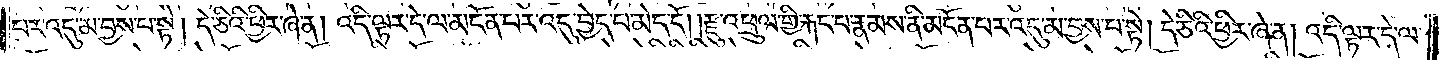པར་འདུ་མ་བྱས་པ་སྟེ། དེ་ཅིའི་ཕྱིར་ཞེ་ན། འདི་ལྟར་དེ་ལ་མངོན་པར་འདུ་བྱེད་པ་མེད་དོ། །རྫུ་འཕྲུལ་གྱི་རྐང་པ་རྣམས་ནི་མངོན་པར་འདུ་མ་བྱས་པ་སྟེ། དེ་ཅིའི་ཕྱིར་ཞེ་ན། འདི་ལྟར་དེ་ལ་
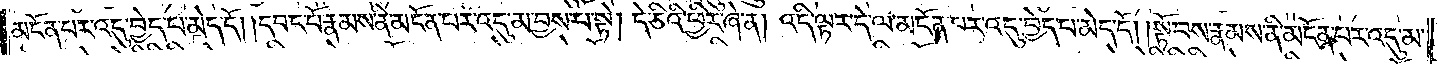མངོན་པར་འདུ་བྱེད་པ་མེད་དོ། །དབང་པོ་རྣམས་ནི་མངོན་པར་འདུ་མ་བྱས་པ་སྟེ། དེ་ཅིའི་ཕྱིར་ཞེ་ན། འདི་ལྟར་དེ་ལ་མངོན་པར་འདུ་བྱེད་པ་མེད་དོ། །སྟོབས་རྣམས་ནི་མངོན་པར་འདུ་མ་
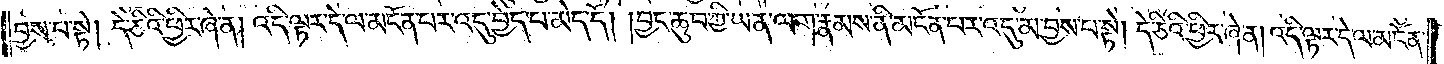བྱས་པ་སྟེ། དེ་ཅིའི་ཕྱིར་ཞེ་ན། འདི་ལྟར་དེ་ལ་མངོན་པར་འདུ་བྱེད་པ་མེད་དོ། །བྱང་ཆུབ་ཀྱི་ཡན་ལག་རྣམས་ནི་མངོན་པར་འདུ་མ་བྱས་པ་སྟེ། དེ་ཅིའི་ཕྱིར་ཞེ་ན། འདི་ལྟར་དེ་ལ་མངོན་
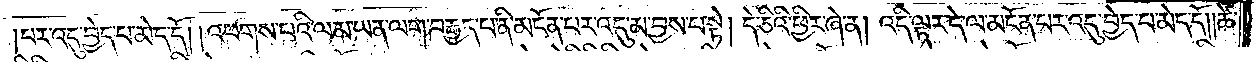པར་འདུ་བྱེད་པ་མེད་དོ། །འཕགས་པའི་ལམ་ཡན་ལག་བརྒྱད་པ་ནི་མངོན་པར་འདུ་མ་བྱས་པ་སྟེ། དེ་ཅིའི་ཕྱིར་ཞེ་ན། འདི་ལྟར་དེ་ལ་མངོན་པར་འདུ་བྱེད་པ་མེད་དོ། །ཚེ་
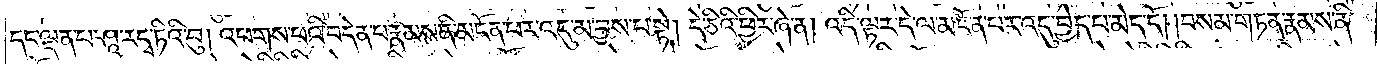དང་ལྡན་པ་ཤཱ་ར་དྭ་ཏིའི་བུ། འཕགས་པའི་བདེན་པ་རྣམས་ནི་མངོན་པར་འདུ་མ་བྱས་པ་སྟེ། དེ་ཅིའི་ཕྱིར་ཞེ་ན། འདི་ལྟར་དེ་ལ་མངོན་པར་འདུ་བྱེད་པ་མེད་དོ། །བསམ་གཏན་རྣམས་ནི་
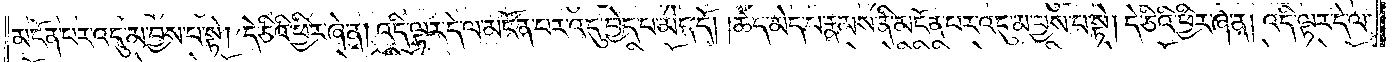མངོན་པར་འདུ་མ་བྱས་པ་སྟེ། དེ་ཅིའི་ཕྱིར་ཞེ་ན། འདི་ལྟར་དེ་ལ་མངོན་པར་འདུ་བྱེད་པ་མེད་དོ། །ཚད་མེད་པ་རྣམས་ནི་མངོན་པར་འདུ་མ་བྱས་པ་སྟེ། དེ་ཅིའི་ཕྱིར་ཞེ་ན། འདི་ལྟར་དེ་ལ་
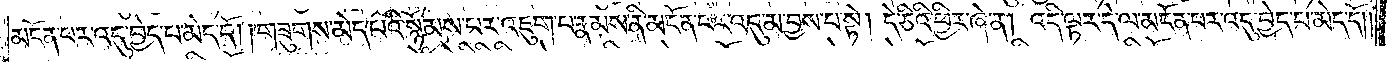མངོན་པར་འདུ་བྱེད་པ་མེད་དོ། །གཟུགས་མེད་པའི་སྙོམས་པར་འཇུག་པ་རྣམས་ནི་མངོན་པར་འདུ་མ་བྱས་པ་སྟེ། དེ་ཅིའི་ཕྱིར་ཞེ་ན། འདི་ལྟར་དེ་ལ་མངོན་པར་འདུ་བྱེད་པ་མེད་དོ། །
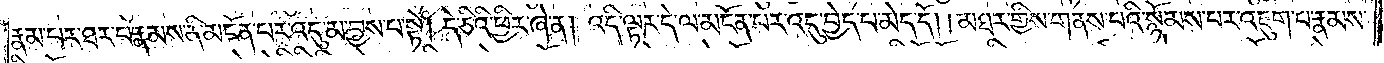རྣམ་པར་ཐར་པ་རྣམས་ནི་མངོན་པར་འདུ་མ་བྱས་པ་སྟེ། དེ་ཅིའི་ཕྱིར་ཞེ་ན། འདི་ལྟར་དེ་ལ་མངོན་པར་འདུ་བྱེད་པ་མེད་དོ། །མཐར་གྱིས་གནས་པའི་སྙོམས་པར་འཇུག་པ་རྣམས་
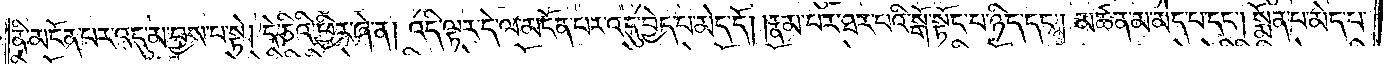ནི་མངོན་པར་འདུ་མ་བྱས་པ་སྟེ། དེ་ཅིའི་ཕྱིར་ཞེ་ན། འདི་ལྟར་དེ་ལ་མངོན་པར་འདུ་བྱེད་པ་མེད་དོ། །རྣམ་པར་ཐར་པའི་སྒོ་སྟོང་པ་ཉིད་དང༌། མཚན་མ་མེད་པ་དང༌། སྨོན་པ་མེད་པ་
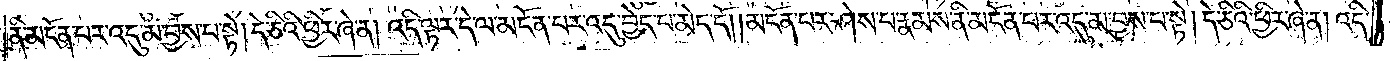ནི་མངོན་པར་འདུ་མ་བྱས་པ་སྟེ། དེ་ཅིའི་ཕྱིར་ཞེ་ན། འདི་ལྟར་དེ་ལ་མངོན་པར་འདུ་བྱེད་པ་མེད་དོ། །མངོན་པར་ཤེས་པ་རྣམས་ནི་མངོན་པར་འདུ་མ་བྱས་པ་སྟེ། དེ་ཅིའི་ཕྱིར་ཞེ་ན། འདི་
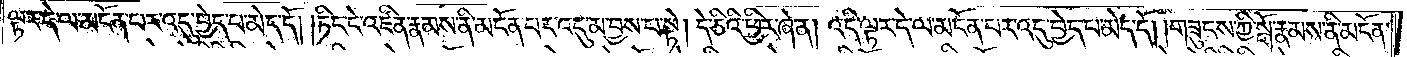ལྟར་དེ་ལ་མངོན་པར་འདུ་བྱེད་པ་མེད་དོ། །ཏིང་ངེ་འཛིན་རྣམས་ནི་མངོན་པར་འདུ་མ་བྱས་པ་སྟེ། དེ་ཅིའི་ཕྱིར་ཞེ་ན། འདི་ལྟར་དེ་ལ་མངོན་པར་འདུ་བྱེད་པ་མེད་དོ། །གཟུངས་ཀྱི་སྒོ་རྣམས་ནི་མངོན་
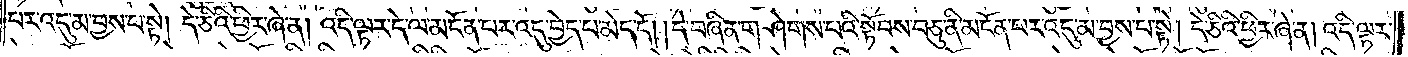པར་འདུ་མ་བྱས་པ་སྟེ། དེ་ཅིའི་ཕྱིར་ཞེ་ན། འདི་ལྟར་དེ་ལ་མངོན་པར་འདུ་བྱེད་པ་མེད་དོ། །དེ་བཞིན་གཤེགས་པའི་སྟོབས་བཅུ་ནི་མངོན་པར་འདུ་མ་བྱས་པ་སྟེ། དེ་ཅིའི་ཕྱིར་ཞེ་ན། འདི་ལྟར་
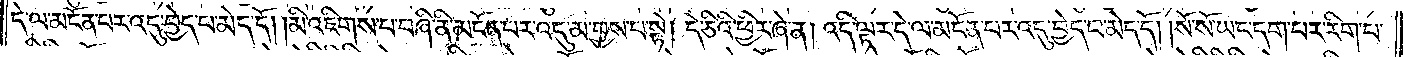དེ་ལ་མངོན་པར་འདུ་བྱེད་པ་མེད་དོ། །མི་འཇིགས་པ་བཞི་ནི་མངོན་པར་འདུ་མ་བྱས་པ་སྟེ། དེ་ཅིའི་ཕྱིར་ཞེ་ན། འདི་ལྟར་དེ་ལ་མངོན་པར་འདུ་བྱེད་པ་མེད་དོ། །སོ་སོ་ཡང་དག་པར་རིག་པ་
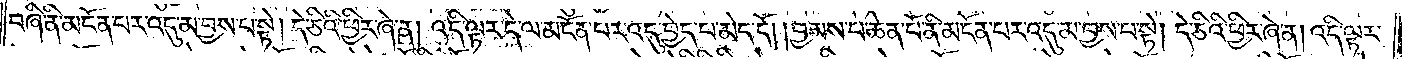བཞི་ནི་མངོན་པར་འདུ་མ་བྱས་པ་སྟེ། དེ་ཅིའི་ཕྱིར་ཞེ་ན། འདི་ལྟར་དེ་ལ་མངོན་པར་འདུ་བྱེད་པ་མེད་དོ། །བྱམས་པ་ཆེན་པོ་ནི་མངོན་པར་འདུ་མ་བྱས་པ་སྟེ། དེ་ཅིའི་ཕྱིར་ཞེ་ན། འདི་ལྟར་
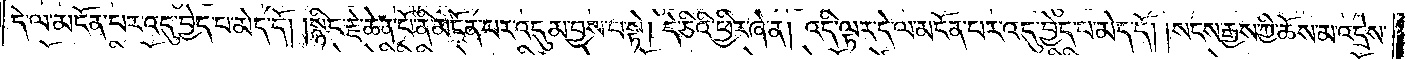དེ་ལ་མངོན་པར་འདུ་བྱེད་པ་མེད་དོ། །སྙིང་རྗེ་ཆེན་པོ་ནི་མངོན་པར་འདུ་མ་བྱས་པ་སྟེ། དེ་ཅིའི་ཕྱིར་ཞེ་ན། འདི་ལྟར་དེ་ལ་མངོན་པར་འདུ་བྱེད་པ་མེད་དོ། །སངས་རྒྱས་ཀྱི་ཆོས་མ་འདྲེས་
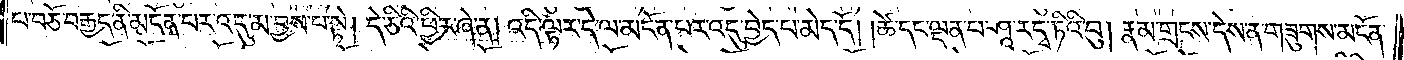པ་བཅོ་བརྒྱད་ནི་མངོན་པར་འདུ་མ་བྱས་པ་སྟེ། དེ་ཅིའི་ཕྱིར་ཞེ་ན། འདི་ལྟར་དེ་ལ་མངོན་པར་འདུ་བྱེད་པ་མེད་དོ། །ཚེ་དང་ལྡན་པ་ཤཱ་ར་དྭ་ཏིའི་བུ། རྣམ་གྲངས་དེས་ན་གཟུགས་མངོན་
